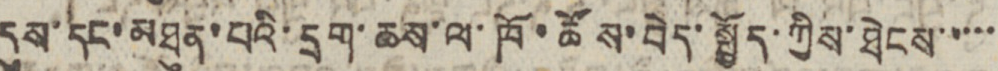དུས་དང་མཐུན་པའི་དྲག་ཆས་ལ་ཁོ་ཚོས་བེད་སྤྱོད་ཀྱིས་ཐེངས་་་་་
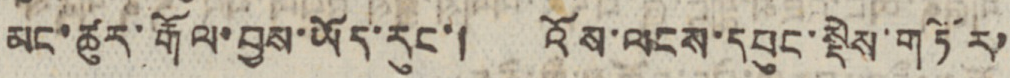མང་ཚུར་རྒོལ་བྱས་ཡོད་རུང་། འོས་ལངས་དཔུང་སྡེས་གཏོར་
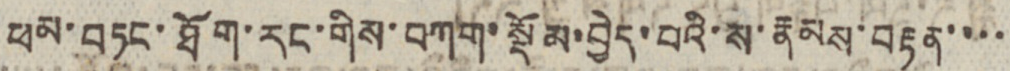ཕམ་བཏང་ཐོག་རང་གིས་བཀག་སྡོམ་བྱེད་པའི་ས་རྣམས་བརྟན་་་་
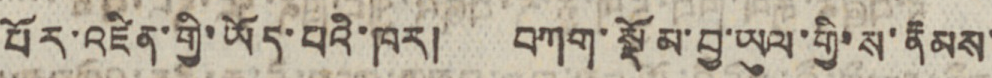པོར་འཛིན་གྱི་ཡོད་པའི་ཁར། བཀག་སྡོམ་བྱ་ཡུལ་གྱི་ས་རྣམས་
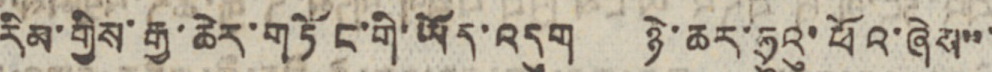རིམ་གྱིས་རྒྱ་ཆེར་གཏོང་གི་ཡོད་འདུག ཉེ་ཆར་ཧྲུའུ་ཕོའ་ཞེས་་་
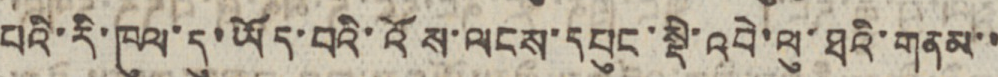པའི་རི་ཁུལ་དུ་ཡོད་པའི་འོས་ལངས་དཔུང་སྡེ་འབེ་ལུ་ཐའི་གནམ་་
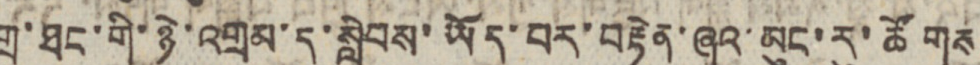གྲུ་ཐང་གི་ཉེ་འགྲམ་དུ་སླེབས་ཡོད་པར་བརྟེན་ཞའ་མུང་རུ་ཚོགས་
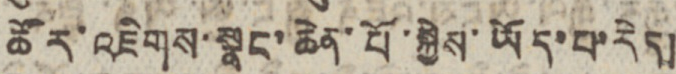ཚོར་འཇེགས་སྣང་ཆེན་པོ་སྐྱེས་ཡོད་པ་རེད།
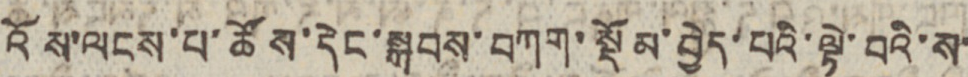འོས་ལངས་པ་ཚོས་དེང་སྐབས་བཀག་སྡོམ་བྱེད་པའི་ལྟེ་བའི་ས་
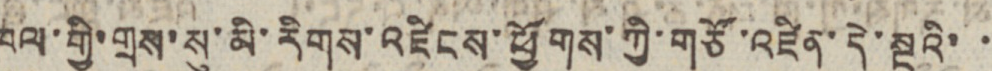ཁུལ་གྱི་གྲས་སུ་མི་རིགས་འཛིངས་ཕྱོགས་ཀྱི་གཙོ་འཛིན་དེ་སྔའི་ ་
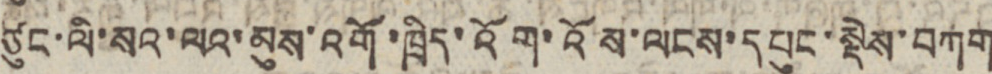ཙུང་ལི་སའ་ལའ་མུས་འགོ་ཁྲིད་འོག་འོས་ལངས་དཔུང་སྡེས་བཀག་
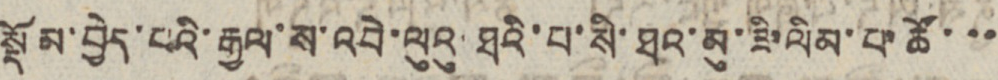སྡོམ་བྱེད་པའི་རྒྱལ་ས་འབེ་ལུའུ་ཐའི་པ་སི་ཐའ་མུ་ཟི་ལིམ་པ་ཚོ་་་
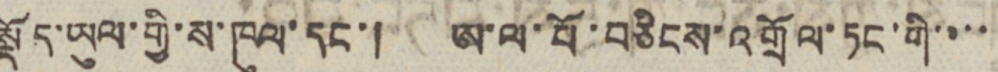སྡོད་ཡུལ་གྱི་ས་ཁུལ་དང་། ཨ་ལ་པོ་བཅིངས་འགྲོལ་ཏང་གི་་་་
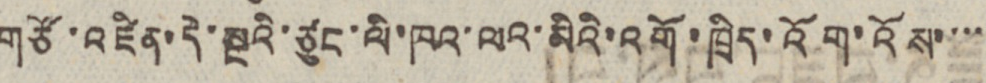གཙོ་འཛིན་དེ་སྔའི་ཙུང་ལི་ཁའ་ལའ་མིའི་འགོ་ཁྲིད་འོག་འོས་་་་་
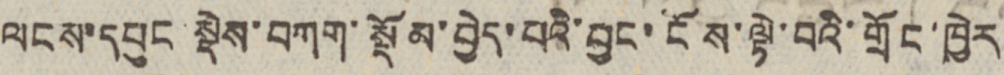ལངས་དཔུང སྡེས་བཀག་སྡོམ་བྱེད་པའི་བྱང་ངོས་ལྟེ་བའི་གྲོང་ཁྱེར
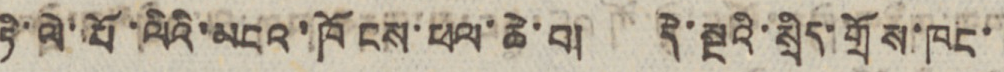ཏི་ལེ་པོ་ལིའི་མངའ་ཁོངས་ཕལ་ཆེ་བ། དེ་སྔའི་སྲིད་གྲོས་ཁང་
